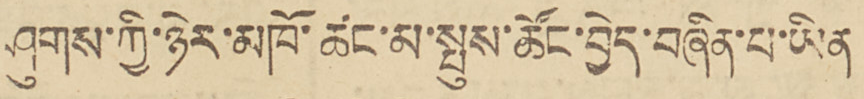ཤུགས་ཀྱི་ཉེར་མཁོ་ཚང་མ་སྤུས་ཚོང་བྱེད་བཞིན་པ་ཡིན
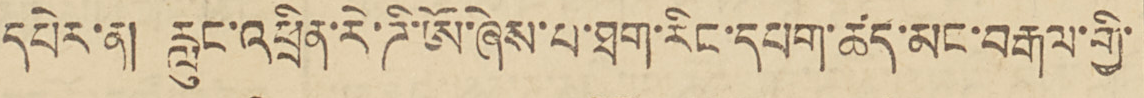དཔེར་ན། རླུང་འཕྲིན་རེ་ཌི་ཨོ་ཞེས་པ་ཐག་རིང་དཔག་ཚད་མང་བརྒལ་གྱི་
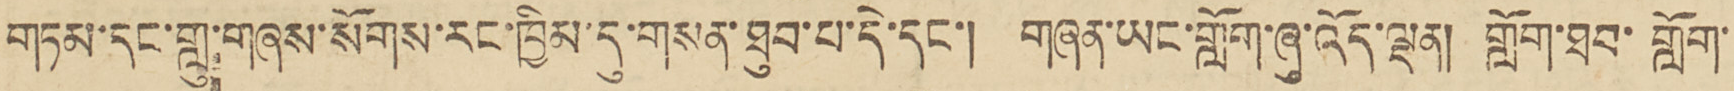གཏམ་དང་གླུ་གཞས་སོགས་རང་ཁྱིམ་དུ་གསན་ཐུབ་བ་དེ་དང་། གཞན་ཡང་གློག་ཞུ་འོན་ལྡན། གློག་ཐབ་གློག་
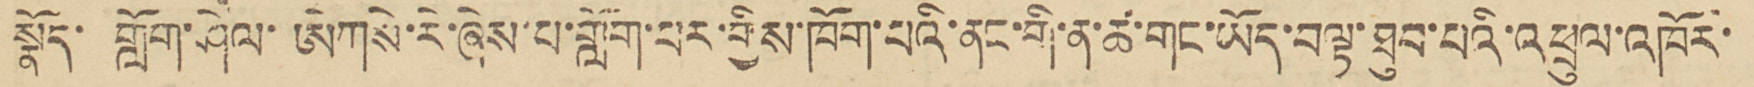སྣོད་གློག་ཤེལ་ཨེཀསེ་རེ་ཞེས་པ་གློག་པར་གྱིས་ཁོག་པའི་ནང་གི་ན་ཚ་གང་ཡོད་བལྟ་ཐུབ་པའི་འཕྲུལ་འཁོར་
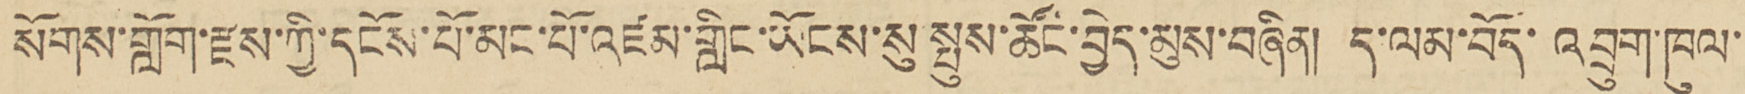སོགས་གློག་རྫས་ཀྱི་དངོས་པོ་མང་པོ་འཛམ་གླིང་ཡོངས་སུ་སྤུས་ཚོང་བྱེད་མུས་བཞིན། ད་ལམ་བོད་འབྲུལ་ཁུལ་
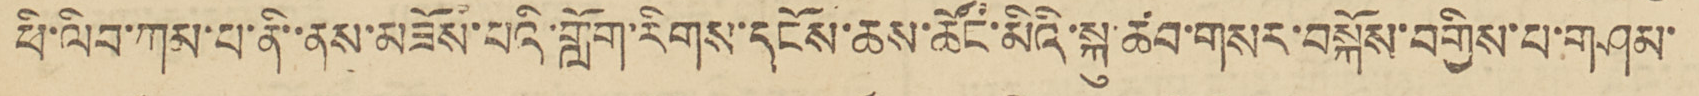ཕི་ལིབ་ཀམ་པ་ནི་་ནས་བཟོས་པའི་གློག་རིགས་དངོས་ཆས་ཚོང་མིའི་སྐུ་ཚབ་གསར་བསྐོས་བགྱིས་པ་གཤམ་
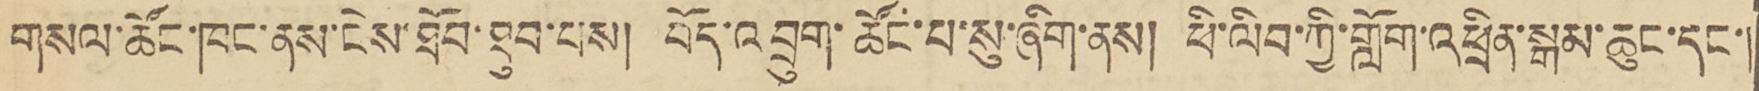གསལ་ཚོང་ཁང་ནས་ངེས་ཐོབ་ཐུབ་པས། བོད་འབྲུག་ཚོང་པ་སུ་ཞིག་ནས། ཕི་ལིབ་ཀྱི་གློག་འཕྲིན་སྒམ་ཆུང་དང་།
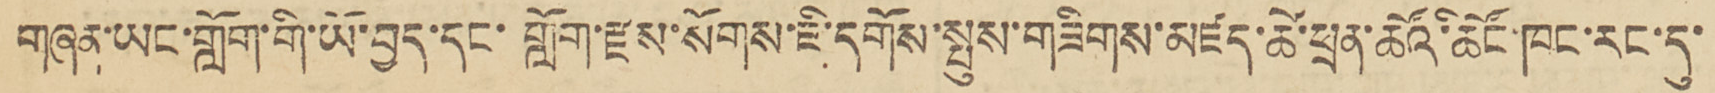གཞན་ཡང་གློག་གི་ཡོ་བྱད་དང་གློག་རྫས་སོགས་ཇི་དགོས་སྤུས་གཟིགས་མཛད་ཚེ་ཕྲན་ཚོའ་ཚོང་ཁང་རང་དུ་
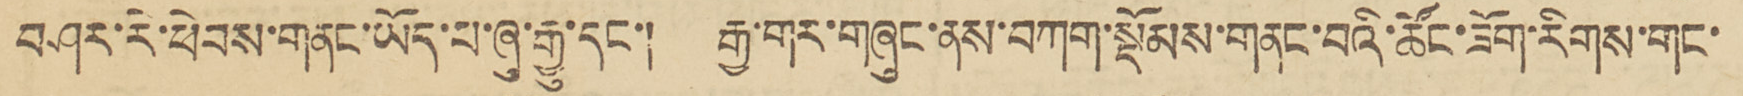བཤར་རེ་ཕེབས་གནང་ཡོད་པ་ཞུ་རྒྱུ་དང་། རྒྱ་གར་གཞུང་ནས་བཀག་སྡོམས་གནང་བའི་ཚོང་རིགས་གང་
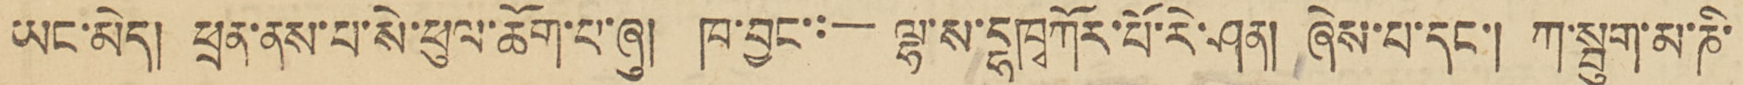ཡང་མེད། ཕྲན་ནས་པ་སེ་ཕུལ་ཆོག་པ་ཞུ། ཁ་བྱང་:— ལྷ་ས་དྷཁྭཀོར་པོ་རེ་ཤན། ཞེས་པ་དང་། ཀ་སྦུག་མ་ནི་
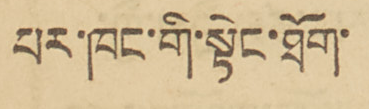པར་ཁང་གི་སྟེང་ཐོག་
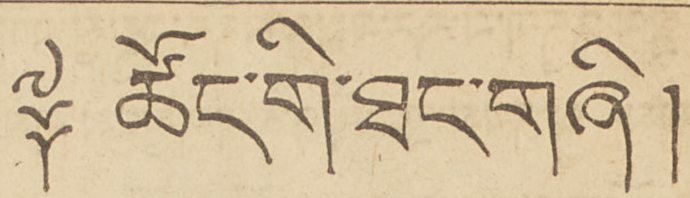༈ ཚོང་གི་ཐང་གཞི།
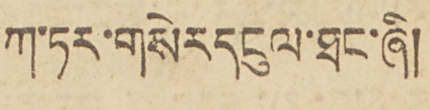ཀ་ཏར་གསེར་དངུལ་ཐང་ཞི།
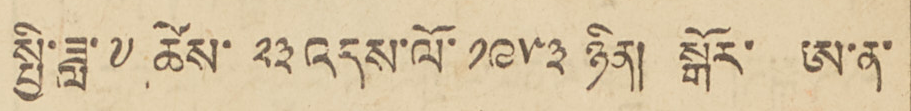སྤྱི་ཟླ་ ༧ ཚེས་ ༡༣ འདས་ལོ་ ༡༩༥༣ ཉིན། སྒོར་ ཨ་ན་
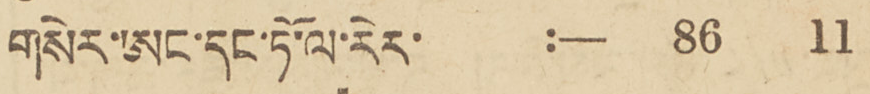གསེར་ཨང་དང་ཏོ་ལ་རེར་ :— 86 11
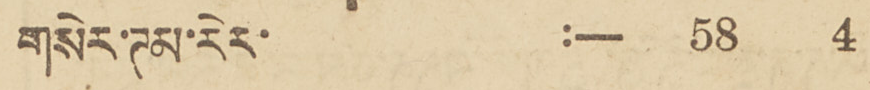གསེར་ཊམ་རེར་ :— 58 4
